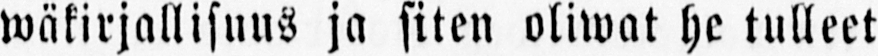wäkirjallisuus ja siten oliwat he tulleet
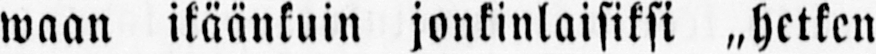waan ikäänkuin jonkinlaisiksi ˶hetken
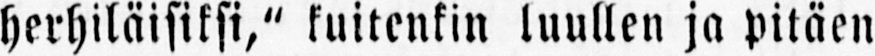herhiläisiksi," kuitenkin luullen ja pitäen
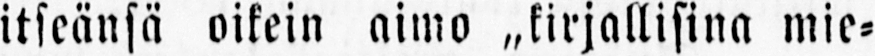itseänsä oikein aimo ˶kirjallisina mie-
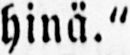hinä."
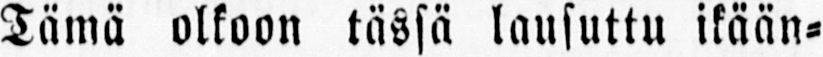Tämä olkoon tässä lausuttu ikään-
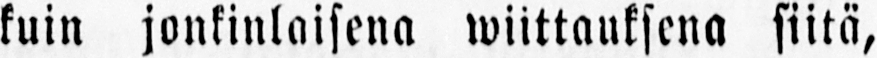kuin jonkinlaisena wiittauksena siitä,
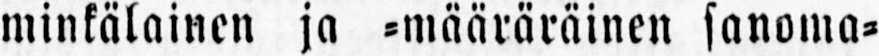minkälainen ja -määräräinen sanoma-
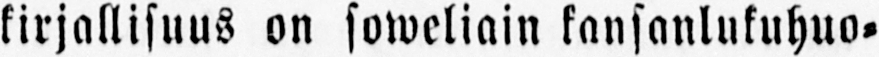kirjallisuus on soweliain kansanlukuhuo-
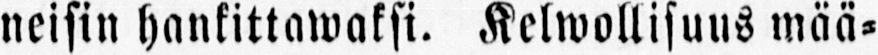neisin hankittawaksi. Kelwollisuus mää-
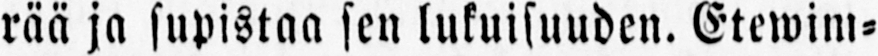rää ja supistaa sen lukuisuuden. Etewim-
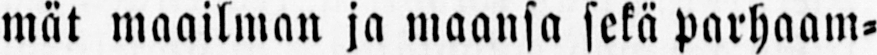mät maailman ja maansa sekä parhaam-
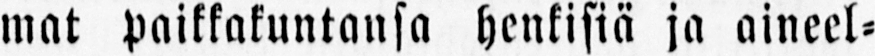mat paikkakuntansa henkisiä ja aineel-
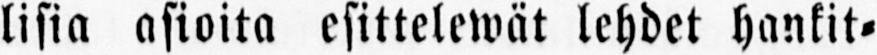lisia asioita esittelewät lehdet hankit-
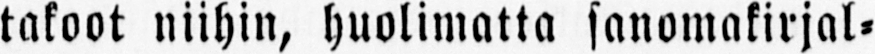takoot niihin, huolimatta sanomakirjal-
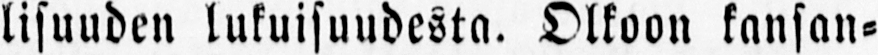lisuuden lukuisuudesta. Olkoon kansan-
